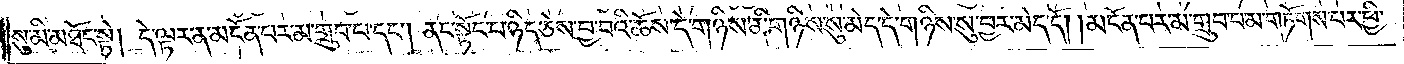སུ་མི་མཐོང་སྟེ། །དེ་ལྟར་ན་མངོན་པར་མ་གྲུབ་པ་དང༌། ནང་སྟོང་པ་ཉིད་ཅེས་བྱ་བའི་ཆོས་དེ་གཉིས་ནི་གཉིས་སུ་མེད་དེ་གཉིས་སུ་བྱར་མེད་དོ། །མངོན་པར་མ་གྲུབ་པ་མ་གཏོགས་པར་ཕྱི་
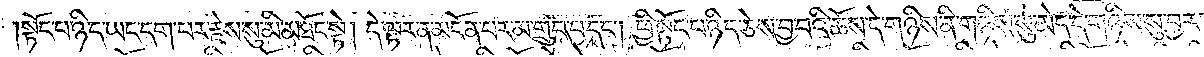སྟོང་པ་ཉིད་ཡང་དག་པར་རྗེས་སུ་མི་མཐོང་སྟེ། དེ་ལྟར་ན་མངོན་པར་མ་གྲུབ་པ་དང༌། ཕྱི་སྟོང་པ་ཉིད་ཅེས་བྱ་བའི་ཆོས་དེ་གཉིས་ནི་གཉིས་སུ་མེད་དེ་གཉིས་སུ་བྱར་
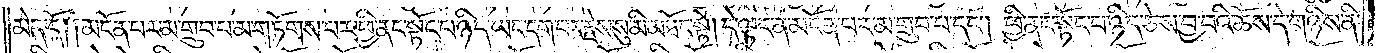མེད་དོ། །མངོན་པར་མ་གྲུབ་པ་མ་གཏོགས་པར་ཕྱི་ནང་སྟོང་པ་ཉིད་ཡང་དག་པར་རྗེས་སུ་མི་མཐོང་སྟེ། དེ་ལྟར་ན་མངོན་པར་མ་གྲུབ་པ་དང༌། ཕྱི་ནང་སྟོང་པ་ཉིད་ཅེས་བྱ་བའི་ཆོས་དེ་གཉིས་ནི་
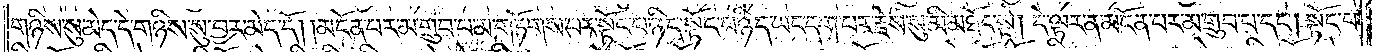གཉིས་སུ་མེད་དེ་གཉིས་སུ་བྱར་མེད་དོ། །མངོན་པར་མ་གྲུབ་པ་མ་གཏོགས་པར་སྟོང་པ་ཉིད་སྟོང་པ་ཉིད་ཡང་དག་པར་རྗེས་སུ་མི་མཐོང་སྟེ། དེ་ལྟར་ན་མངོན་པར་མ་གྲུབ་པ་དང༌། སྟོང་པ་
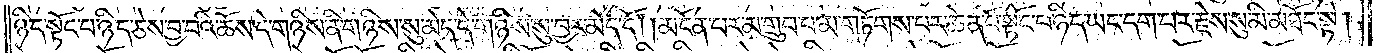ཉིད་སྟོང་པ་ཉིད་ཅེས་བྱ་བའི་ཆོས་དེ་གཉིས་ནི་གཉིས་སུ་མེད་དེ་གཉིས་སུ་བྱར་མེད་དོ། །མངོན་པར་མ་གྲུབ་པ་མ་གཏོགས་པར་ཆེན་པོ་སྟོང་པ་ཉིད་ཡང་དག་པར་རྗེས་སུ་མི་མཐོང་སྟེ།
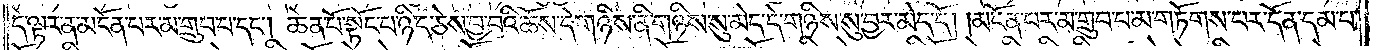དེ་ལྟར་ན་མངོན་པར་མ་གྲུབ་པ་དང༌། ཆེན་པོ་སྟོང་པ་ཉིད་ཅེས་བྱ་བའི་ཆོས་དེ་གཉིས་ནི་གཉིས་སུ་མེད་དེ་གཉིས་སུ་བྱར་མེད་དོ། །མངོན་པར་མ་གྲུབ་པ་མ་གཏོགས་པར་དོན་དམ་པ་
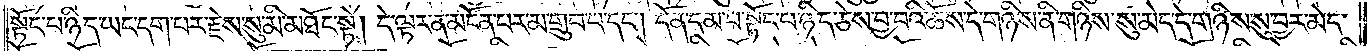སྟོང་པ་ཉིད་ཡང་དག་པར་རྗེས་སུ་མི་མཐོང་སྟེ། དེ་ལྟར་ན་མངོན་པར་མ་གྲུབ་པ་དང༌། དོན་དམ་པ་སྟོང་པ་ཉིད་ཅེས་བྱ་བའི་ཆོས་དེ་གཉིས་ནི་གཉིས་སུ་མེད་དེ་གཉིས་སུ་བྱར་མེད་
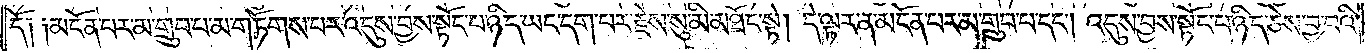དོ༑ ༑མངོན་པར་མ་གྲུབ་པ་མ་གཏོགས་པར་འདུས་བྱས་སྟོང་པ་ཉིད་ཡང་དག་པར་རྗེས་སུ་མི་མཐོང་སྟེ། དེ་ལྟར་ན་མངོན་པར་མ་གྲུབ་པ་དང༌། འདུས་བྱས་སྟོང་པ་ཉིད་ཅེས་བྱ་བའི་
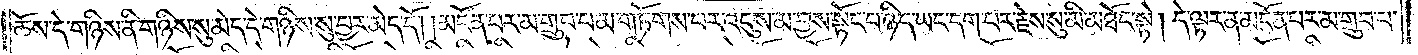ཆོས་དེ་གཉིས་ནི་གཉིས་སུ་མེད་དེ་གཉིས་སུ་བྱར་མེད་དོ། །མངོན་པར་མ་གྲུབ་པ་མ་གཏོགས་པར་འདུས་མ་བྱས་སྟོང་པ་ཉིད་ཡང་དག་པར་རྗེས་སུ་མི་མཐོང་སྟེ། དེ་ལྟར་ན་མངོན་པར་མ་གྲུབ་པ་
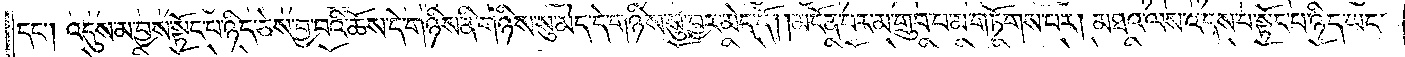དང༌། འདུས་མ་བྱས་སྟོང་པ་ཉིད་ཅེས་བྱ་བའི་ཆོས་དེ་གཉིས་ནི་གཉིས་སུ་མེད་དེ་གཉིས་སུ་བྱར་མེད་དོ། །མངོན་པར་མ་གྲུབ་པ་མ་གཏོགས་པར། མཐའ་ལས་འདས་པ་སྟོང་པ་ཉིད་ཡང་
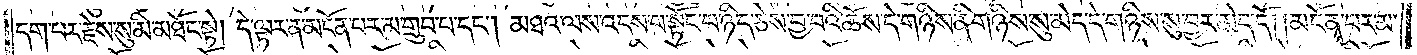དག་པར་རྗེས་སུ་མི་མཐོང་སྟེ། དེ་ལྟར་ན་མངོན་པར་མ་གྲུབ་པ་དང༌། མཐའ་ལས་འདས་པ་སྟོང་པ་ཉིད་ཅེས་བྱ་བའི་ཆོས་དེ་གཉིས་ནི་གཉིས་སུ་མེད་དེ་གཉིས་སུ་བྱར་མེད་དོ། །མངོན་པར་མ་
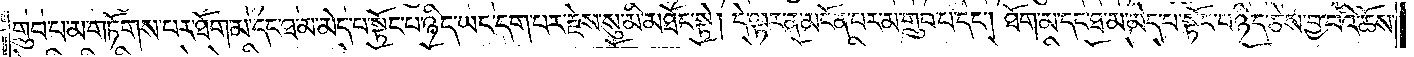གྲུབ་པ་མ་གཏོགས་པར་ཐོག་མ་དང་ཐ་མ་མེད་པ་སྟོང་པ་ཉིད་ཡང་དག་པར་རྗེས་སུ་མི་མཐོང་སྟེ། དེ་ལྟར་ན་མངོན་པར་མ་གྲུབ་པ་དང༌། ཐོག་མ་དང་ཐ་མ་མེད་པ་སྟོང་པ་ཉིད་ཅེས་བྱ་བའི་ཆོས་
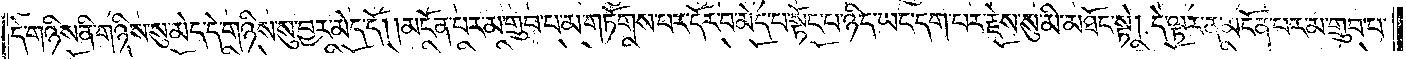དེ་གཉིས་ནི་གཉིས་སུ་མེད་དེ་གཉིས་སུ་བྱར་མེད་དོ། །མངོན་པར་མ་གྲུབ་པ་མ་གཏོགས་པར་དོར་བ་མེད་པ་སྟོང་པ་ཉིད་ཡང་དག་པར་རྗེས་སུ་མི་མཐོང་སྟེ། དེ་ལྟར་ན་མངོན་པར་མ་གྲུབ་པ་
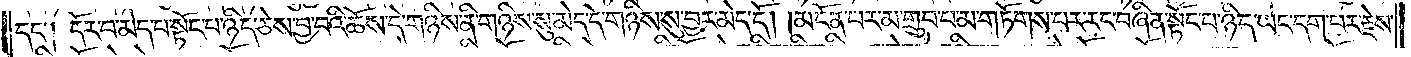དང༌། དོར་བ་མེད་པ་སྟོང་པ་ཉིད་ཅེས་བྱ་བའི་ཆོས་དེ་གཉིས་ནི་གཉིས་སུ་མེད་དེ་གཉིས་སུ་བྱར་མེད་དོ། །མངོན་པར་མ་གྲུབ་པ་མ་གཏོགས་པར་རང་བཞིན་སྟོང་པ་ཉིད་ཡང་དག་པར་རྗེས་
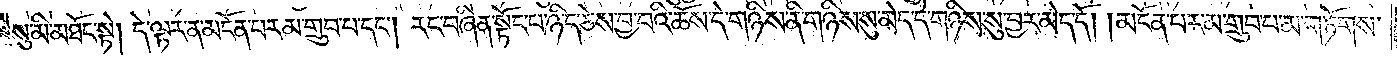སུ་མི་མཐོང་སྟེ། དེ་ལྟར་ན་མངོན་པར་མ་གྲུབ་པ་དང༌། རང་བཞིན་སྟོང་པ་ཉིད་ཅེས་བྱ་བའི་ཆོས་དེ་གཉིས་ནི་གཉིས་སུ་མེད་དེ་གཉིས་སུ་བྱར་མེད་དོ། །མངོན་པར་མ་གྲུབ་པ་མ་གཏོགས་
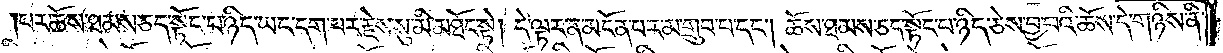པར་ཆོས་ཐམས་ཅད་སྟོང་པ་ཉིད་ཡང་དག་པར་རྗེས་སུ་མི་མཐོང་སྟེ། དེ་ལྟར་ན་མངོན་པར་མ་གྲུབ་པ་དང༌། ཆོས་ཐམས་ཅད་སྟོང་པ་ཉིད་ཅེས་བྱ་བའི་ཆོས་དེ་གཉིས་ནི་
